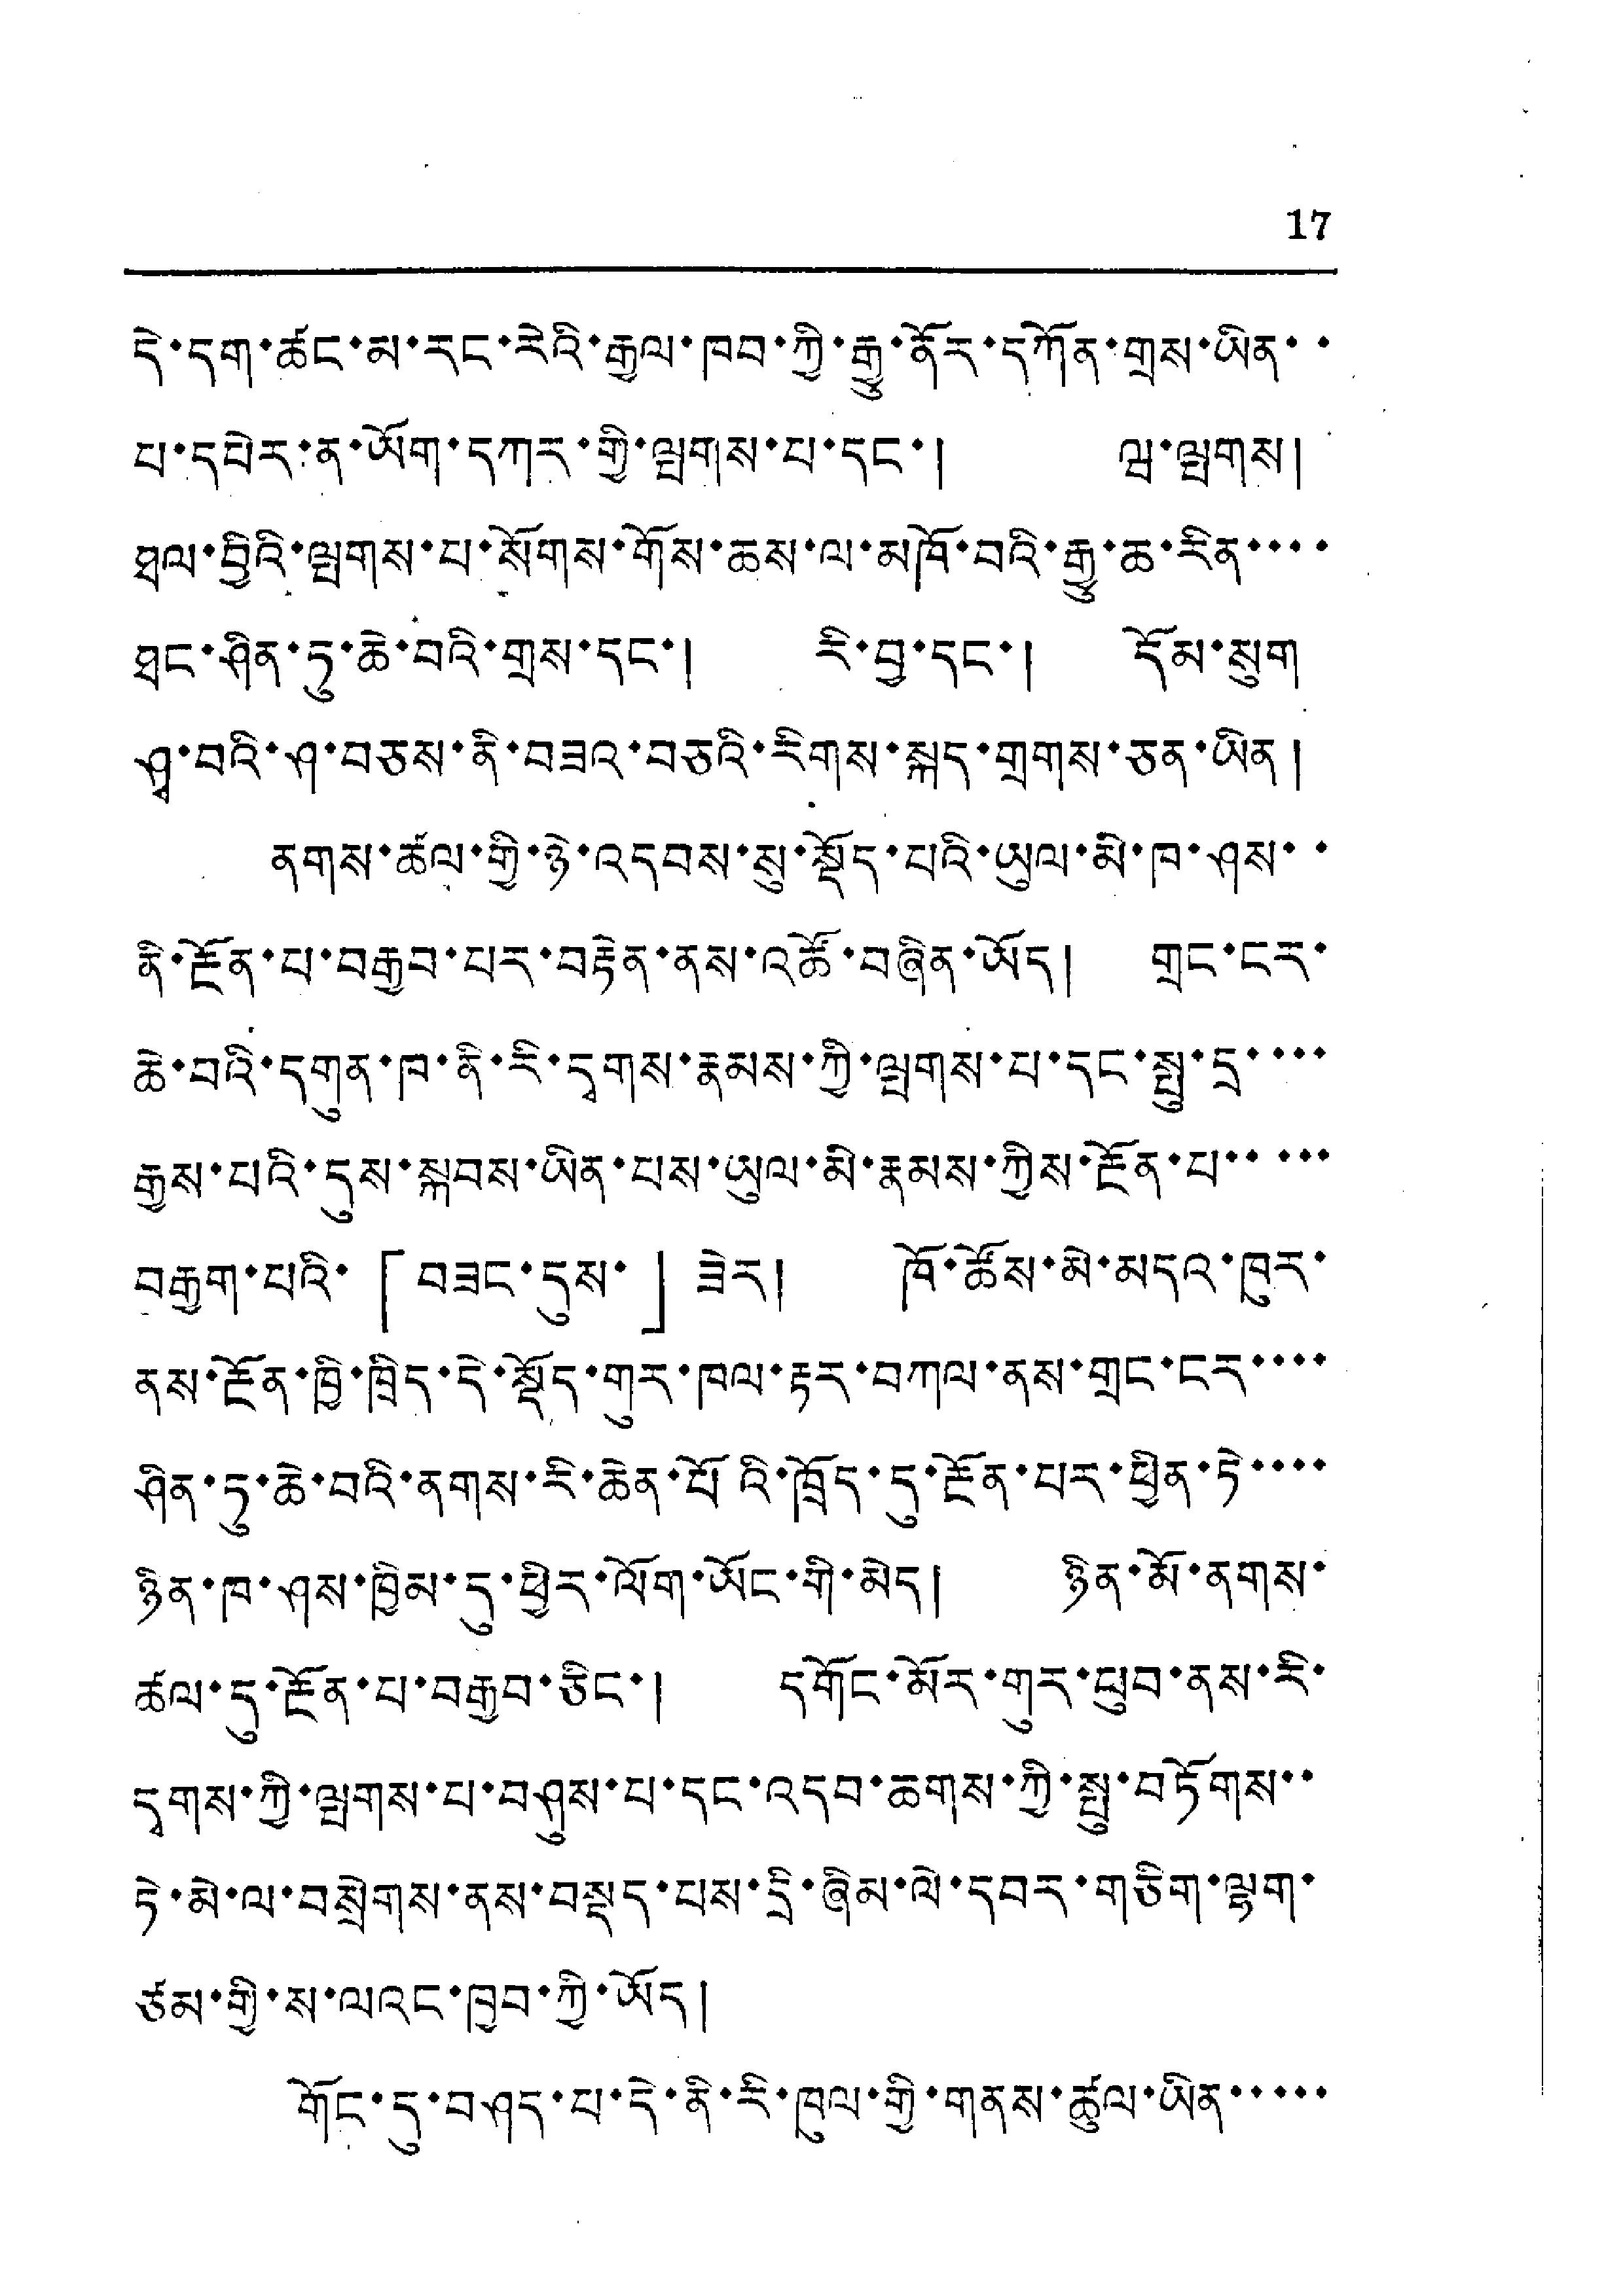17
དེ་དག་ཚང་མ་རང་རེའི་རྒྱལ་ཁབ་ཀྱི་རྒྱུ་ནོར་དཀོན་གྲས་ཡིན་་
པ་དཔེར་ན་ཡོག་དཀར་གྱི་ལྤགས་པ་དང་། ཝ་ལྤགས།
ཐལ་བྱིའི་ལྤགས་པ་སོགས་གོས་ཆས་ལ་མཁོ་བའི་རྒྱུ་ཆ་རིན་་་་
ཐང་ཤིན་ཏུ་ཆེ་བའི་གྲས་དང་། རི་བྱ་དང་། དོམ་སུག་
ཤྭ་བའི་ཤ་བཅས་ནི་བཟའ་བཅའི་རིགས་སྐད་གྲགས་ཅན་ཡིན།
ནགས་ཚལ་གྱི་ཉེ་འདབས་སུ་སྡོད་པའི་ཡུལ་མི་ཁ་ཤས་་
ནི་རྔོན་པ་བརྒྱབ་པར་བརྟེན་ནས་འཚོ་བཞིན་ཡོད། གྲང་ངར་
ཆེ་བའི་དགུན་ཁ་ནི་རི་དྭགས་རྣམས་ཀྱི་ལྤགས་པ་དང་སྤུ་དྲ་་་་
རྒྱས་པའི་དུས་སྐབས་ཡིན་པས་ཡུལ་མི་རྣམས་ཀྱིས་རྫོན་པ་་་་་་
བརྒྱག་པའི་「བཟང་དུས་」ཟེར། ཁོ་ཚོས་མེ་མདའ་ཁུར་
ནས་རྔོན་ཁྱི་ཁྲིད་དེ་སྡོད་གར་ཁལ་རྟར་བཀལ་ནས་གྲང་ངར་་་་
ཤིན་ཏུ་ཆེ་བའི་ནགས་རི་ཆེན་པོའི་ཁྲོད་དུ་རྔོན་པར་ཕྱིན་ཏེ་་་་་
ཉིན་ཁ་ཤས་ཁྱིམ་དུ་ཕྱིར་ལོག་ཡོང་གི་མེད། ཉིན་མོ་ནགས་
ཚལ་དུ་རྔོན་པ་བརྒྱབ་ཅིང་། དགོང་མོར་གུར་ཕུབ་ནས་རི་
དྭགས་ཀྱི་ལྤགས་པ་བཤུས་པ་དང་འདབ་ཆགས་ཀྱི་སྤུ་བཏོགས་་
ཏེ་མེ་ལ་བསྲེགས་ནས་བསྡད་པས་དྲི་ཞིམ་ལེ་དབར་གཅིག་ལྷག་
ཙམ་གྱི་ས་ལའང་ཁྱབ་ཀྱི་ཡོད།
གོང་དུ་བཤད་པ་དེ་ནི་རི་ཁུལ་གྱི་གནས་ཚུལ་ཡིན་་་་་
